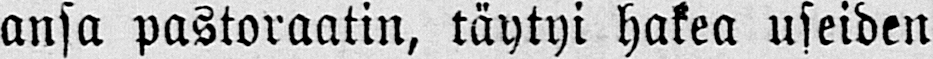ansa pastoraatin, täytyi hakea useiden
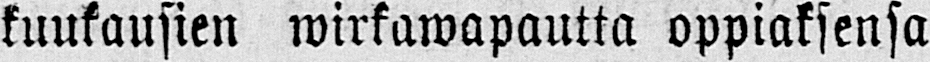kuukausien wirkawapautta oppiaksensa
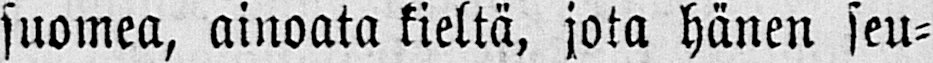suomea, ainoata kieltä, jota hänen seu-
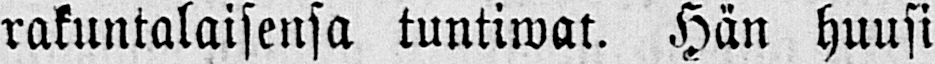rakuntalaisensa tuntiwat. Hän huusi
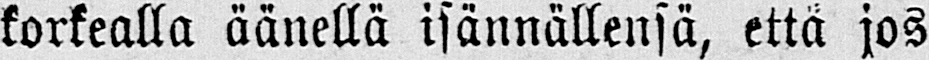korkealla äänellä isännällensä, että jos
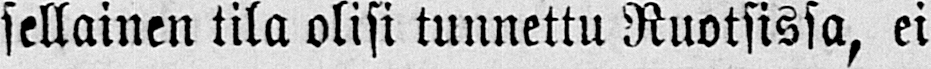sellainen tila olisi tunnettu Ruotsissa, ei
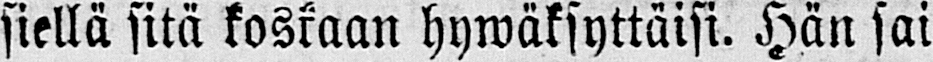siellä sitä koskaan hywäksyttäisi. Hän sai
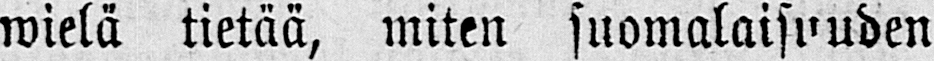wielä tietää, miten suomalaisuuden
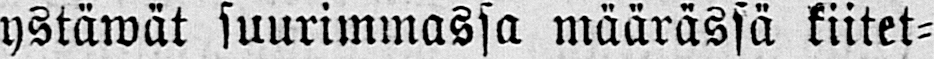ystäwät suurimmassa määrässä kiitet-
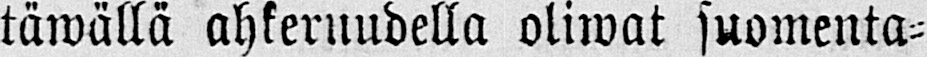täwällä ahkeruudella oliwat suomenta-
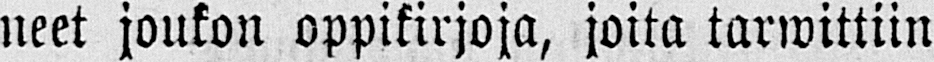neet joukon oppikirjoja, joita tarwittiin
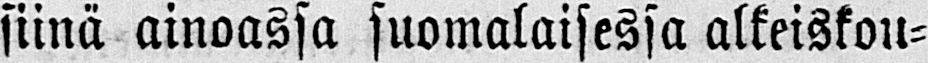siinä ainoassa suomalaisessa alkeiskou-
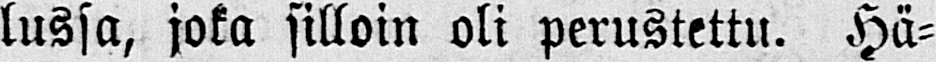lussa, joka silloin oli perustettu. Hä-
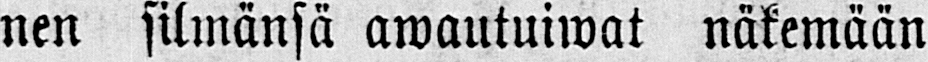nen silmänsä awautuiwat näkemään
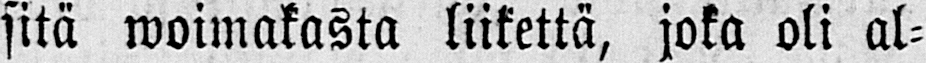sitä woimakasta liikettä, joka oli al-
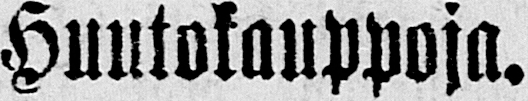Huutokauppoja.
